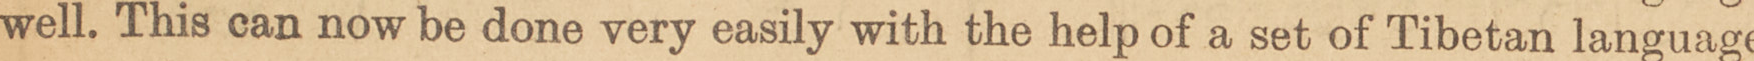well. This can now be done very easily with the help of a set of Tibetan Language
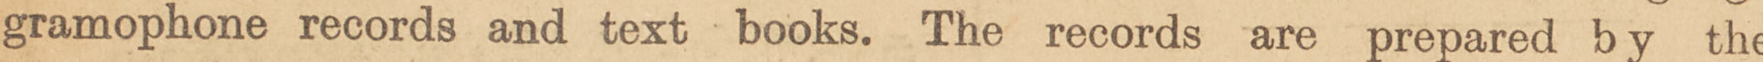gramophone records and text books. The records are prepared by the
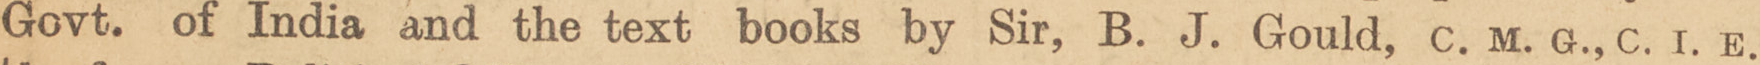Govt. of India and the text books by Sir, B. J. Gould, C. M. G., C. I. E.
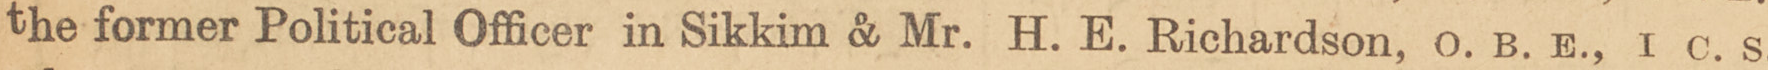the former political Officer in Sikkim & Mr. H. E. Richerdson, O. B. E., I. C. S.
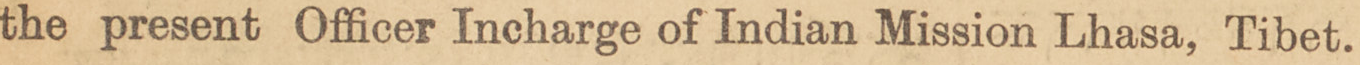the present officer Incharge of Indian Mission Lhasa, Tibet.
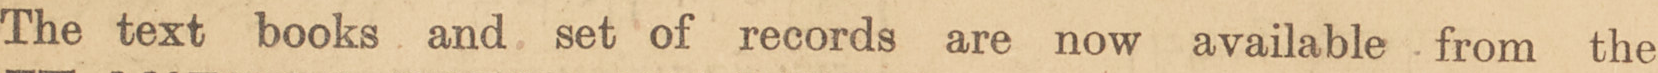The text books and set of records are now available from the
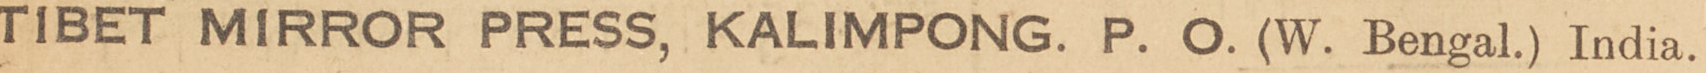TIBET MIRROW PRESS, KALIMPONG. P. O. (W. Bengal.) India.
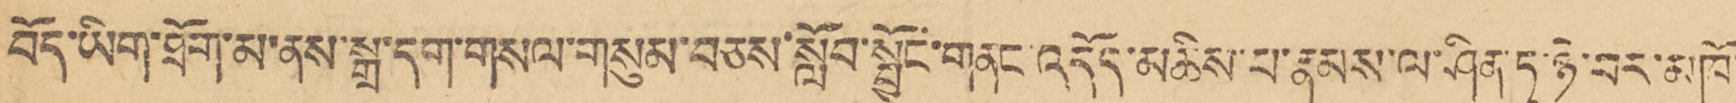བོད་ཡིག་ཐོག་མ་ནས་སྒྲ་དག་གསལ་གསུམ་བཅས་སློབ་སྦྱོང་གནང་འདོད་མཆིས་པ་རྣམས་ལ་ཤིན་ཏུ་ཉེ་བར་མཁོ་
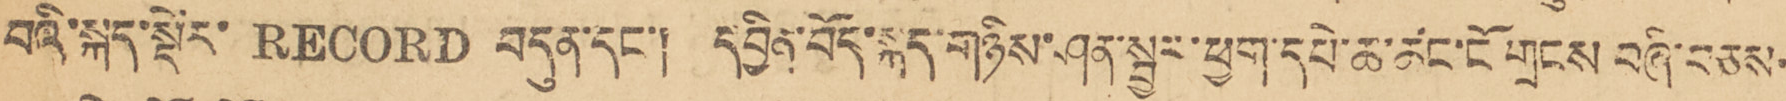པའི་སྐད་སྡེར་ RECORD བདུན་དང་། དབྱིན་བོད་སྐད་གཉིས་ཤན་སྦྱར་ཕྱག་དཔེ་ཆ་ཚང་ངོ་གྲངས་བཞི་བཅས་
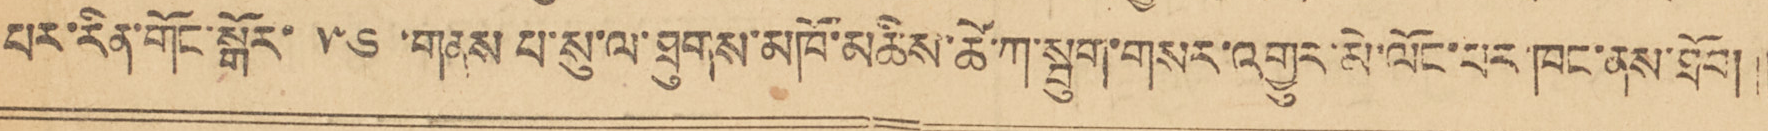པར་རིན་གོང་སྒོར་ ༥༦ ་གནས པ་སུ་ལ་ཐུགས་མཁོ་མཆིས་ཚེ་ཀ་སྦུག་གསར་འགྱུར་མེ་ལོང་པར་ཁང་ནས་ཐོབ།།
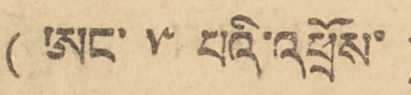(ཨང་ ༥ པའི་འཕྲོས་)
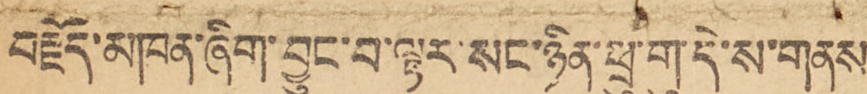བརྗོད་མཁན་ཞིག་བྱུང་བ་ལྟར་སང་ཉིན་ཕྲུ་གུ་དེ་ས་གནས
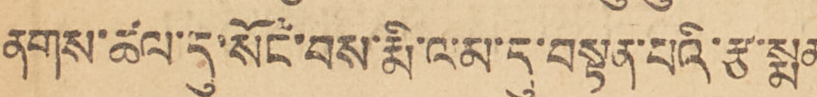ནགས་ཚལ་དུ་སོང་བས་རྨི་ལམ་དུ་བསྟན་འཛིན་པའི་རྩ་སྨན་
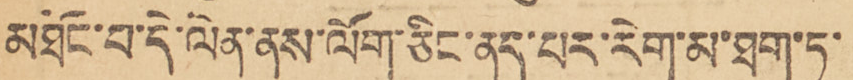མཐོང་བ་དེ་ལེན་ནས་ལོག་ཅིང་ནད་པར་རེག་མ་ཐག་ཏུ་
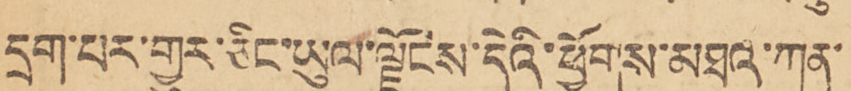དྲག་པར་གྱུར་ཅིང་ཡུལ་ལྗོངས་དེའི་ཕྱོགས་མཐའ་ཀུན་
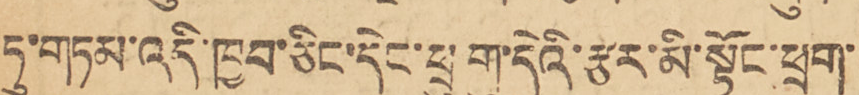ཏུ་གཏམ་འདི་ཁྱབ་ཅིང་དེང་ཕྲུ གུ་དེའི་རྩར་མི་སྟོང་ཕྲག་
